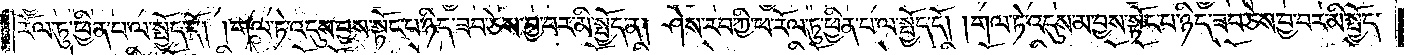རོལ་ཏུ་ཕྱིན་པ་ལ་སྤྱོད་དོ། །གལ་ཏེ་འདུས་བྱས་པ་སྟོང་པ་ཉིད་ཟབ་ཅེས་བྱ་བར་མི་སྤྱོད་ན། ཤེས་རབ་ཀྱི་ཕ་རོལ་ཏུ་ཕྱིན་པ་ལ་སྤྱོད་དོ། །གལ་ཏེ་འདུས་མ་བྱས་སྟོང་པ་ཉིད་ཟབ་ཅེས་བྱ་བར་མི་སྤྱོད་
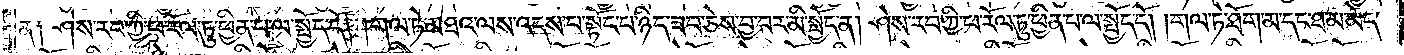ན༑ ཤེས་རབ་ཀྱི་ཕ་རོལ་ཏུ་ཕྱིན་པ་ལ་སྤྱོད་དོ། །གལ་ཏེ་མཐའ་ལས་འདས་པ་སྟོང་པ་ཉིད་ཟབ་ཅེས་བྱ་བར་མི་སྤྱོད་ན། ཤེས་རབ་ཀྱི་ཕ་རོལ་ཏུ་ཕྱིན་པ་ལ་སྤྱོད་དོ། །གལ་ཏེ་ཐོག་མ་དང་ཐ་མ་མེད་
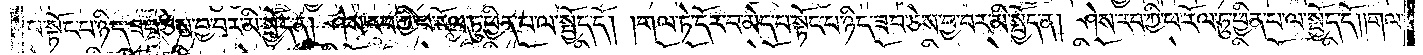པ་སྟོང་པ་ཉིད་ཟབ་ཅེས་བྱ་བར་མི་སྤྱོད་ན། ཤེས་རབ་ཀྱི་ཕ་རོལ་ཏུ་ཕྱིན་པ་ལ་སྤྱོད་དོ། །གལ་ཏེ་དོར་བ་མེད་པ་སྟོང་པ་ཉིད་ཟབ་ཅེས་བྱ་བར་མི་སྤྱོད་ན། ཤེས་རབ་ཀྱི་ཕ་རོལ་ཏུ་ཕྱིན་པ་ལ་སྤྱོད་དོ། །གལ་
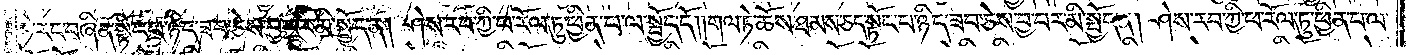ཏེ་རང་བཞིན་སྟོང་པ་ཉིད་ཟབ་ཅེས་བྱ་བར་མི་སྤྱོད་ན། ཤེས་རབ་ཀྱི་ཕ་རོལ་ཏུ་ཕྱིན་པ་ལ་སྤྱོད་དོ། །གལ་ཏེ་ཆོས་ཐམས་ཅད་སྟོང་པ་ཉིད་ཟབ་ཅེས་བྱ་བར་མི་སྤྱོད་ན། ཤེས་རབ་ཀྱི་ཕ་རོལ་ཏུ་ཕྱིན་པ་ལ་
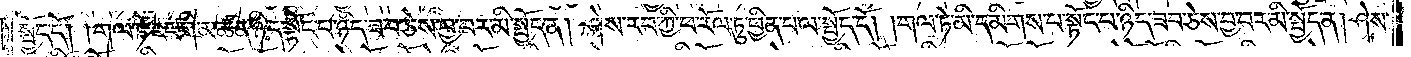སྤྱོད་དོ། །གལ་ཏེ་རང་གི་མཚན་ཉིད་སྟོང་པ་ཉིད་ཟབ་ཅེས་བྱ་བར་མི་སྤྱོད་ན། ཤེས་རབ་ཀྱི་ཕ་རོལ་ཏུ་ཕྱིན་པ་ལ་སྤྱོད་དོ། །གལ་ཏེ་མི་དམིགས་པ་སྟོང་པ་ཉིད་ཟབ་ཅེས་བྱ་བར་མི་སྤྱོད་ན། ཤེས་
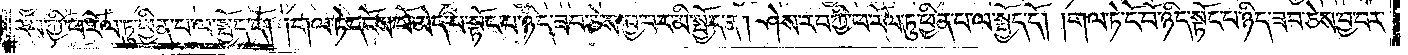རབ་ཀྱི་ཕ་རོལ་ཏུ་ཕྱིན་པ་ལ་སྤྱོད་དོ། །གལ་ཏེ་དངོས་པོ་མེད་པ་སྟོང་པ་ཉིད་ཟབ་ཅེས་བྱ་བར་མི་སྤྱོད་ན། ཤེས་རབ་ཀྱི་ཕ་རོལ་ཏུ་ཕྱིན་པ་ལ་སྤྱོད་དོ། །གལ་ཏེ་ངོ་བོ་ཉིད་སྟོང་པ་ཉིད་ཟབ་ཅེས་བྱ་བར་
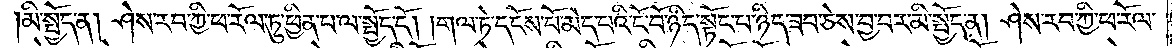མི་སྤྱོད་ན། ཤེས་རབ་ཀྱི་ཕ་རོལ་ཏུ་ཕྱིན་པ་ལ་སྤྱོད་དོ། །གལ་ཏེ་དངོས་པོ་མེད་པའི་ངོ་བོ་ཉིད་སྟོང་པ་ཉིད་ཟབ་ཅེས་བྱ་བར་མི་སྤྱོད་ན། ཤེས་རབ་ཀྱི་ཕ་རོལ་
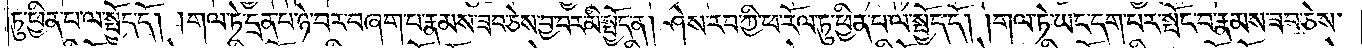ཏུ་ཕྱིན་པ་ལ་སྤྱོད་དོ། །གལ་ཏེ་དྲན་པ་ཉེ་བར་བཞག་པ་རྣམས་ཟབ་ཅེས་བྱ་བར་མི་སྤྱོད་ན། ཤེས་རབ་ཀྱི་ཕ་རོལ་ཏུ་ཕྱིན་པ་ལ་སྤྱོད་དོ། །གལ་ཏེ་ཡང་དག་པར་སྤོང་བ་རྣམས་ཟབ་ཅེས་
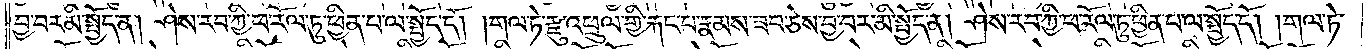བྱ་བར་མི་སྤྱོད་ན། ཤེས་རབ་ཀྱི་ཕ་རོལ་ཏུ་ཕྱིན་པ་ལ་སྤྱོད་དོ། །གལ་ཏེ་རྫུ་འཕྲུལ་གྱི་རྐང་པ་རྣམས་ཟབ་ཅེས་བྱ་བར་མི་སྤྱོད་ན། ཤེས་རབ་ཀྱི་ཕ་རོལ་ཏུ་ཕྱིན་པ་ལ་སྤྱོད་དོ། །གལ་ཏེ་
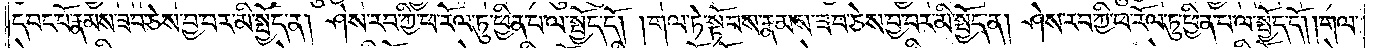དབང་པོ་རྣམས་ཟབ་ཅེས་བྱ་བར་མི་སྤྱོད་ན། ཤེས་རབ་ཀྱི་ཕ་རོལ་ཏུ་ཕྱིན་པ་ལ་སྤྱོད་དོ། །གལ་ཏེ་སྟོབས་རྣམས་ཟབ་ཅེས་བྱ་བར་མི་སྤྱོད་ན། ཤེས་རབ་ཀྱི་ཕ་རོལ་ཏུ་ཕྱིན་པ་ལ་སྤྱོད་དོ། །གལ་
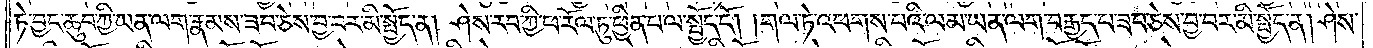ཏེ་བྱང་ཆུབ་ཀྱི་ཡན་ལག་རྣམས་ཟབ་ཅེས་བྱ་བར་མི་སྤྱོད་ན། ཤེས་རབ་ཀྱི་ཕ་རོལ་ཏུ་ཕྱིན་པ་ལ་སྤྱོད་དོ། །གལ་ཏེ་འཕགས་པའི་ལམ་ཡན་ལག་བརྒྱད་པ་ཟབ་ཅེས་བྱ་བར་མི་སྤྱོད་ན། ཤེས་
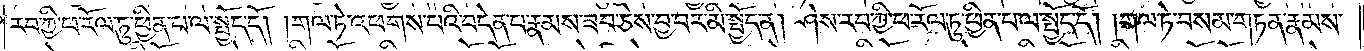རབ་ཀྱི་ཕ་རོལ་ཏུ་ཕྱིན་པ་ལ་སྤྱོད་དོ། །གལ་ཏེ་འཕགས་པའི་བདེན་པ་རྣམས་ཟབ་ཅེས་བྱ་བར་མི་སྤྱོད་ན། ཤེས་རབ་ཀྱི་ཕ་རོལ་ཏུ་ཕྱིན་པ་ལ་སྤྱོད་དོ། །གལ་ཏེ་བསམ་གཏན་རྣམས་
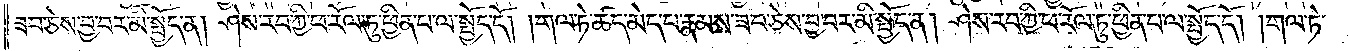ཟབ་ཅེས་བྱ་བར་མི་སྤྱོད་ན། ཤེས་རབ་ཀྱི་ཕ་རོལ་ཏུ་ཕྱིན་པ་ལ་སྤྱོད་དོ། །གལ་ཏེ་ཚད་མེད་པ་རྣམས་ཟབ་ཅེས་བྱ་བར་མི་སྤྱོད་ན། ཤེས་རབ་ཀྱི་ཕ་རོལ་ཏུ་ཕྱིན་པ་ལ་སྤྱོད་དོ། །གལ་ཏེ་
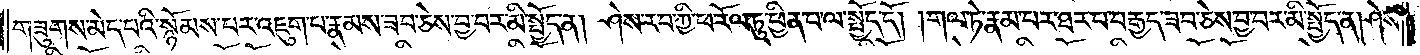གཟུགས་མེད་པའི་སྙོམས་པར་འཇུག་པ་རྣམས་ཟབ་ཅེས་བྱ་བར་མ་སྤྱོད་ན། ཤེས་རབ་ཀྱི་ཕ་རོལ་ཏུ་ཕྱིན་པ་ལ་སྤྱོད་དོ། །གལ་ཏེ་རྣམ་པར་ཐར་པ་བརྒྱད་ཟབ་ཅེས་བྱ་བར་མི་སྤྱོད་ན། ཤེས་
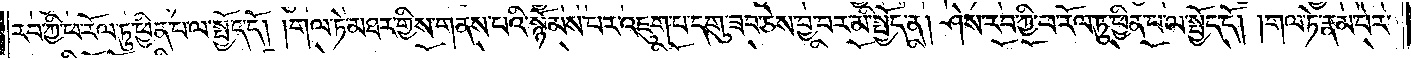རབ་ཀྱི་ཕ་རོལ་ཏུ་ཕྱིན་པ་ལ་སྤྱོད་དོ། །གལ་ཏེ་མཐར་གྱིས་གནས་པའི་སྙོམས་པར་འཇུག་པ་དགུ་ཟབ་ཅེས་བྱ་བར་མི་སྤྱོད་ན། ཤེས་རབ་ཀྱི་ཕ་རོལ་ཏུ་ཕྱིན་པ་ལ་སྤྱོད་དོ། །གལ་ཏེ་རྣམ་པར་
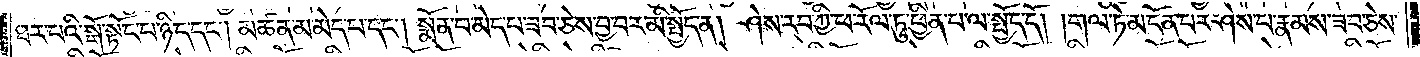ཐར་པའི་སྒོ་སྟོང་པ་ཉིད་དང༌། མཚན་མ་མེད་པ་དང༌། སྨོན་པ་མེད་པ་ཟབ་ཅེས་བྱ་བར་མི་སྤྱོད་ན། ཤེས་རབ་ཀྱི་ཕ་རོལ་ཏུ་ཕྱིན་པ་ལ་སྤྱོད་དོ། །གལ་ཏེ་མངོན་པར་ཤེས་པ་རྣམས་ཟབ་ཅེས་
